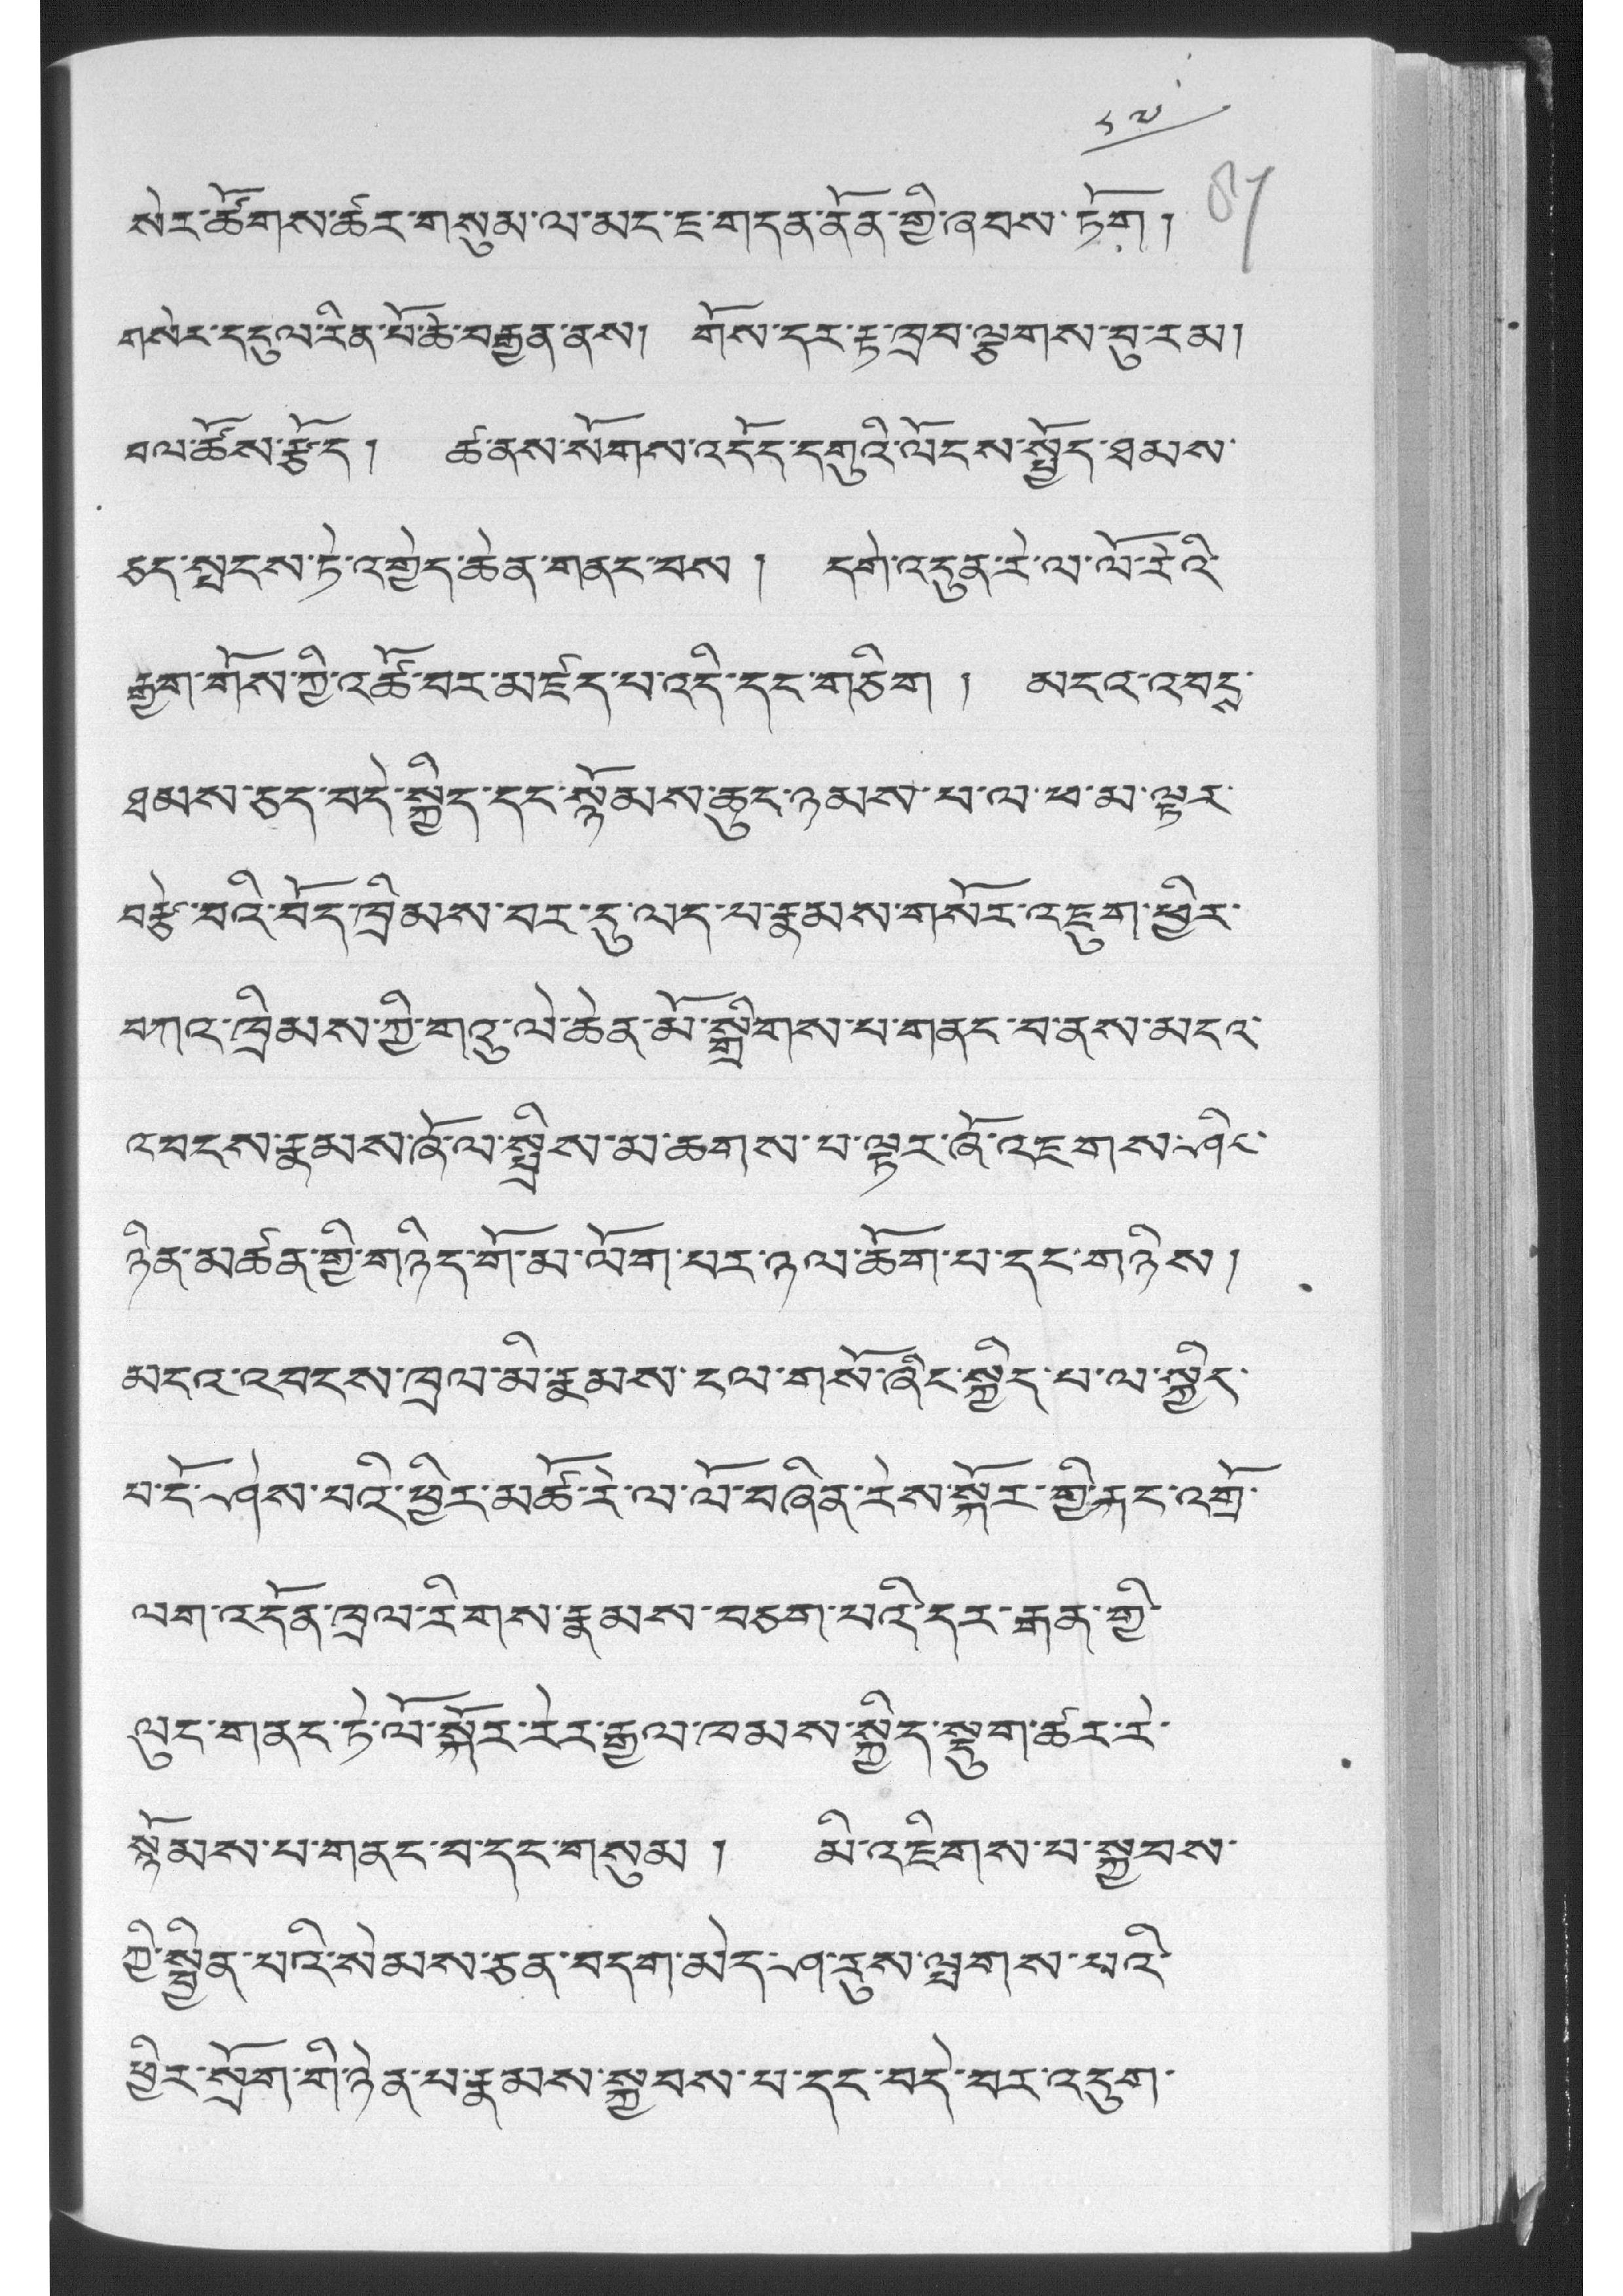༨༧
སེར་ཚོགས་ཚེར་གསུམ་ལ་མང་ཇ་གདན་ནོན་གྱི་ཞབས་ཏོག །
གསེར་དངུལ་རིན་པོ་ཆེ་བརྒྱན་ནས། གོས་དར་རྟ་ཁྲབ་ལྕགས་བུ་རམ།
བལ་ཚོས་རྩོ་ད། ཚ་ནས་སོགས་འདོད་དགུའི་ལོངས་སྤྱོད་ཐམས་
ཅད་སྤངས་ཏེ་འགྱེད་ཆེན་གནང་པས ། དགེ་འདུན་རེ་ལ་ལོ་རེའི་
རྒྱག་གོས་ཀྱི་འཚོ་བར་མཛད་པ་འདི་དང་གཅིག ། མངའ་འབངས་
ཐམས་ཅུད་བདེ་སྐྱིད་དང་སྙོམས་ཆུང་ཉམས་པ་ལ་ཕ་མ་ལྟར་
བརྩེ་བའི་བོད་ཁྲིམས་བར་དུ་ལད་པ་རྣམས་གསོར་འཇུག་ཕྱིར་
བཀའ་ཁྲིམས་ཀྱི་གའུ་ལེ་ཆེན་མོ་སྒྲིགས་པ་གནང་བ་ནས་མངའ་
འབངས་རྣམས་ཞོལ་སྤྲིས་མ་ཆགས་པ་ལྟར་ཞོ་འཇགས་ཤིང་
ཉིན་མཚན་གྱི་གཉིད་གོ་མ་ལོག་པར་ཉལ་ཆོག་པ་དང་གཉིས།
མངའ་འབངས་ཁྲལ་མི་རྣམས་ངལ་གསོ་ཞིང་སྐྱིད་པ་ལ་སྐྱིད་
པ་ངོ་ཤེས་པའི་ཕྱིར་མཚོ་རེ་ལ་ལོ་བཞིན་རེས་སྐོར་གྱི་རྐང་འགྲོ་
ལག་འདོན་ཁྲལ་རིགས་རྣམས་བཅག་པའི་དར་རྒན་གྱི་
ལུད་གནང་ཏེ་ལོ་སྐོར་རེར་རྒྱལ་ཁམས་སྐྱིད་སྡུག་ཚར་རེ་
སྙོམས་པ་གནང་བ་དང་གསུམ ། མི་འཇིགས་པ་སྐྱབས་
ཀྱི་སྦྱིན་པའི་སེམས་ཅན་བདག་མེད་ཤ་རུས་ལྤགས་པའི་
ཕྱིར་སྲོག་གི་ཉེན་པ་རྣམས་སྐྱབས་པ་དང་བདེ་བར་འདུག་
